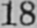18
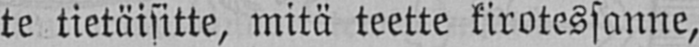te tietäisitte, mitä teette kirotessanne,
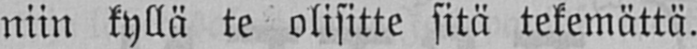niin kyllä te olisitte sitä tekemättä.
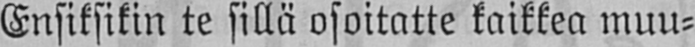Ensiksikin te sillä osoitatte kaikkea muu-
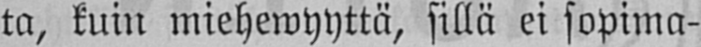ta, kuin miehewyyttä, sillä ei sopima-
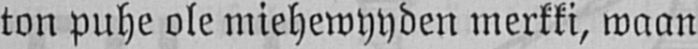ton puhe ole miehewyyden merkki, waan
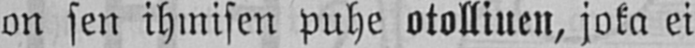on sen ihmisen puhe otolliuen, joka ei
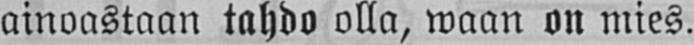ainoastaan tahdo olla, waan on mies.
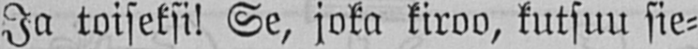Ja toiseksi! Se, joka kiroo, kutsuu sie-
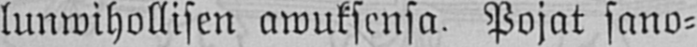lunwihollisen awuksensa. Pojat sano-
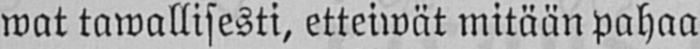wat tawallisesti, etteiwät mitään pahaa
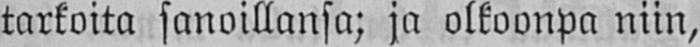tarkoita sanoillansa; ja olkoonpa niin,
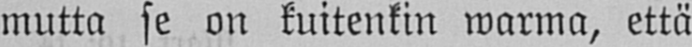mutta se on kuitenkin warma, että
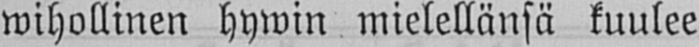wihollinen hywin mielellänsä kuulee
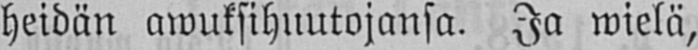heidän awuksihuutojansa. Ja wielä,
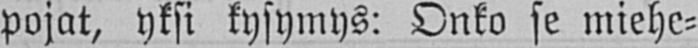pojat, yksi kysymys: Onko se miehe-
